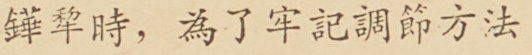鏵犂時，爲了牢記調節方法
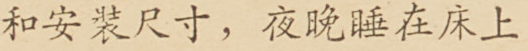和安裝尺寸，夜晚睡在床上
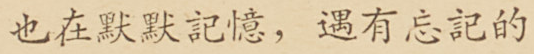也在默默記憶，遇有忘記的
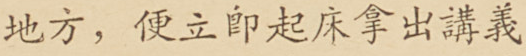地方，便立卽起床拿出講義
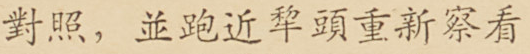對照，並跑近犂頭重新察看
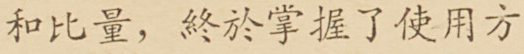和比量，終於掌握了使用方
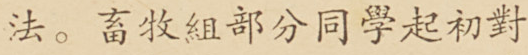法。畜牧組部分同學起初對
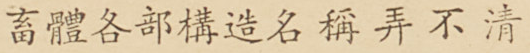畜體各部構造名稱弄不清
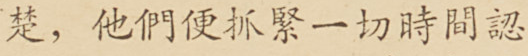楚，他們便抓緊一切時間認
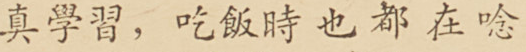真學習，吃飯時也都在唸
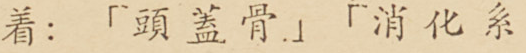着：「頭蓋骨」「消化系
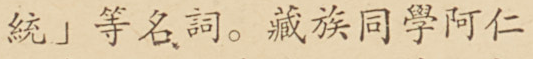統」等名詞。藏族同學阿仁
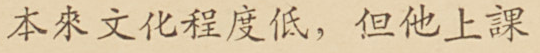本來文化程度低，但他上課
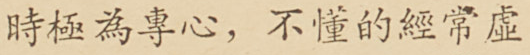時極爲專心，不懂的經常虛
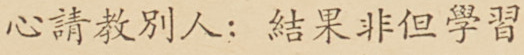心請教別人：結果非但學習
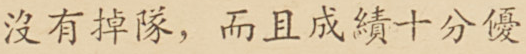沒有掉隊，而且成績十分優
